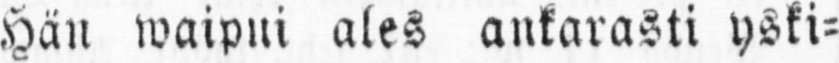Hän waipui ales ankarasti yski-
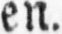en.
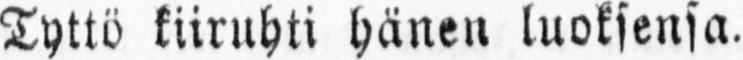Tyttö kiiruhti hänen luoksensa.
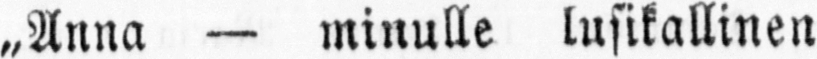„Anna — minulle lusikallinen
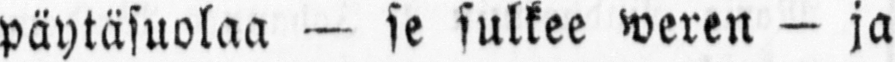päytäsuolaa — se sulkee weren — ja
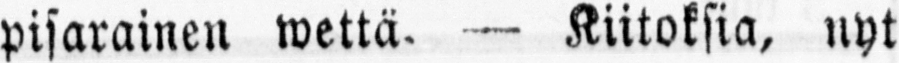pisarainen wettä, — Kiitoksia, nyt
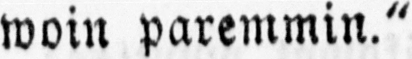woin paremmin."
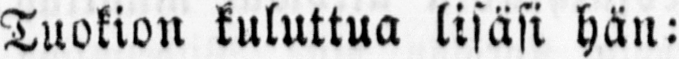Tuokion kuluttua lisäsi hän:
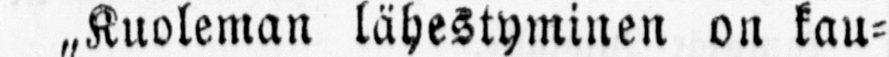„Kuoleman lähestyminen on kau-
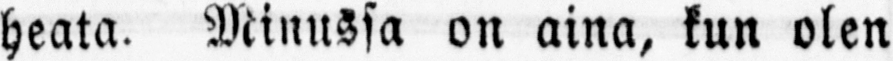heata. Minussa on aina, kun olen
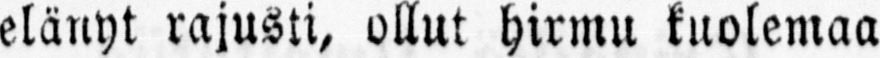elänyt rajusti, ollut hirmu kuolemaa
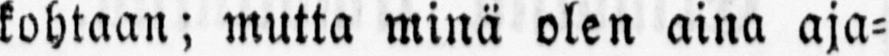kohtaan; mutta minä olen aina aja-
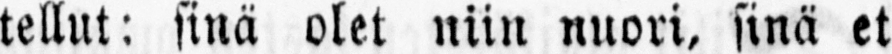tellut: sinä olet niin nuori, sinä et
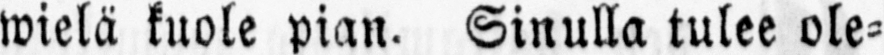wielä kuole pian. Sinulla tulee ole-
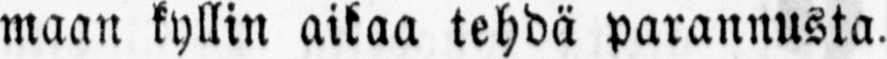maan kyllin aikaa tehdä parannusta.
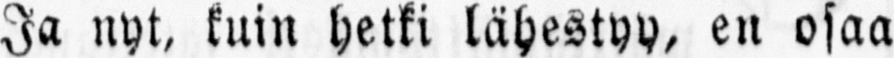Ja nyt, kuin hetki lähestyy, en osaa
